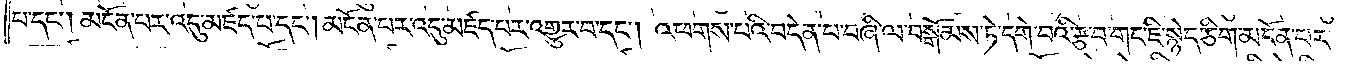པ་དང༌། མངོན་པར་འདུ་མཛད་པ་དང༌། མངོན་པར་འདུ་མཛད་པར་འགྱུར་བ་དང༌། འཕགས་པའི་བདེན་པ་བཞི་ལ་བསྒོམས་ཏེ་དགེ་བའི་རྩ་བ་གང་ཇི་སྙེད་ཅིག་མངོན་པར་
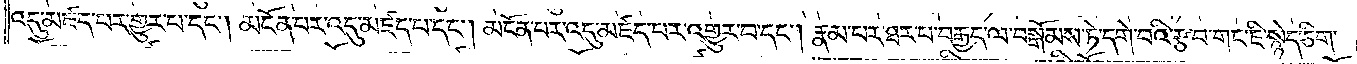འདུ་མཛད་པར་གྱུར་པ་དང༌། མངོན་པར་འདུ་མཛད་པ་དང༌། མངོན་པར་འདུ་མཛད་པར་འགྱུར་བ་དང༌། རྣམ་པར་ཐར་པ་བརྒྱད་ལ་བསྒོམས་ཏེ་དགེ་བའི་རྩ་བ་གང་ཇི་སྙེད་ཅིག་
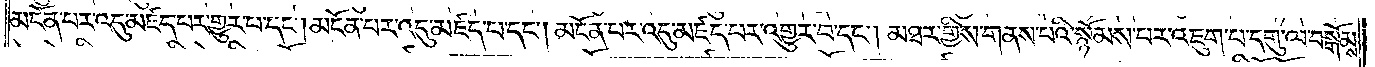མངོན་པར་འདུ་མཛད་པར་གྱུར་པ་དང༌། མངོན་པར་འདུ་མཛད་པ་དང༌། མངོན་པར་འདུ་མཛད་པར་འགྱུར་བ་དང༌། མཐར་གྱིས་གནས་པའི་སྙོམས་པར་འཇུག་པ་དགུ་ལ་བསྒོམས་
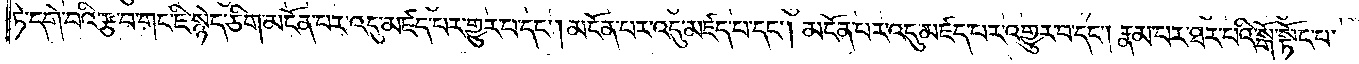ཏེ་དགེ་བའི་རྩ་བ་གང་ཇི་སྙེད་ཅིག་མངོན་པར་འདུ་མཛད་པར་གྱུར་པ་དང༌། མངོན་པར་འདུ་མཛད་པ་དང༌། མངོན་པར་འདུ་མཛད་པར་འགྱུར་བ་དང༌། རྣམ་པར་ཐར་པའི་སྒོ་སྟོང་བ་
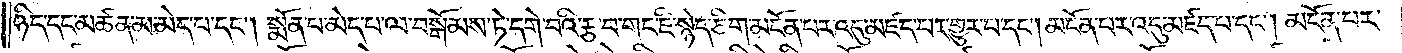ཉིད་དང་མཚན་མ་མེད་པ་དང༌། སྨོན་པ་མེད་པ་ལ་བསྒོམས་ཏེ་དགེ་བའི་རྩ་བ་གང་ཇི་སྙེད་ཅིག་མངོན་པར་འདུ་མཛད་པར་གྱུར་པ་དང༌། མངོན་པར་འདུ་མཛད་པ་དང༌། མངོན་པར་
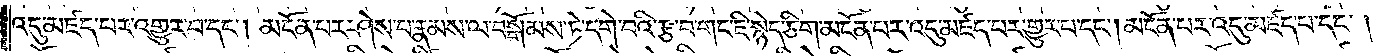འདུ་མཛད་པར་འགྱུར་བ་དང༌། མངོན་པར་ཤེས་པ་རྣམས་ལ་བསྒོམས་ཏེ་དགེ་བའི་རྩ་བ་གང་ཇི་སྙེད་ཅིག་མངོན་པར་འདུ་མཛད་པར་གྱུར་བ་དང༌། མངོན་པར་འདུ་མཛད་པ་དང༌།
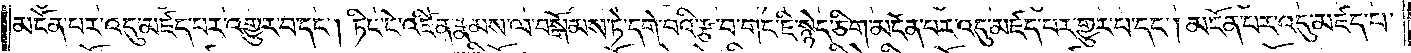མངོན་པར་འདུ་མཛད་པར་འགྱུར་བ་དང༌། ཏིང་ངེ་འཛིན་རྣམས་ལ་བསྒོམས་ཏེ་དགེ་བའི་རྩ་བ་གང་ཇི་སྙེད་ཅིག་མངོན་པར་འདུ་མཛད་པར་གྱུར་པ་དང༌། མངོན་པར་འདུ་མཛད་པ་
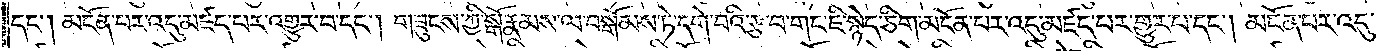དང༌། མངོན་པར་འདུ་མཛད་པར་འགྱུར་བ་དང༌། གཟུངས་ཀྱི་སྒོ་རྣམས་ལ་བསྒོམས་ཏེ་དགེ་བའི་རྩ་བ་གང་ཇི་སྙེད་ཅིག་མངོན་པར་འདུ་མཛད་པར་གྱུར་པ་དང༌། མངོན་པར་འདུ་
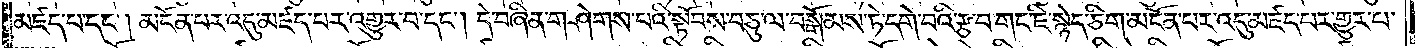མཛད་པ་དང༌། མངོན་པར་འདུ་མཛད་པར་འགྱུར་བ་དང༌། དེ་བཞིན་གཤེགས་པའི་སྟོབས་བཅུ་ལ་བསྒོམས་ཏེ་དགེ་བའི་རྩ་བ་གང་ཇི་སྙེད་ཅིག་མངོན་པར་འདུ་མཛད་པར་གྱུར་པ་
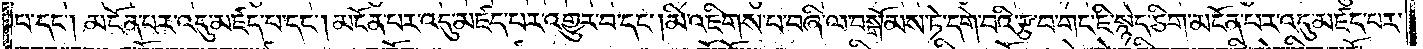པ་དང༌། མངོན་པར་འདུ་མཛད་པ་དང༌། མངོན་པར་འདུ་མཛད་པར་འགྱུར་བ་དང༌། མི་འཇིགས་པ་བཞི་ལ་བསྒོམས་ཏེ་དགེ་བའི་རྩ་བ་གང་ཇི་སྙེད་ཅིག་མངོན་པར་འདུ་མཛད་པར་
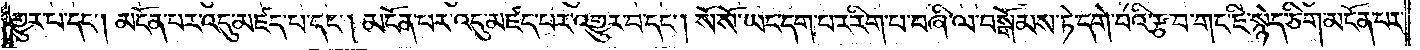གྱུར་པ་དང༌། མངོན་པར་འདུ་མཛད་པ་དང༌། མངོན་པར་འདུ་མཛད་པར་འགྱུར་བ་དང༌། སོ་སོ་ཡང་དག་པར་རིག་པ་བཞི་ལ་བསྒོམས་ཏེ་དགེ་བའི་རྩ་བ་གང་ཇི་སྙེད་ཅིག་མངོན་པར་
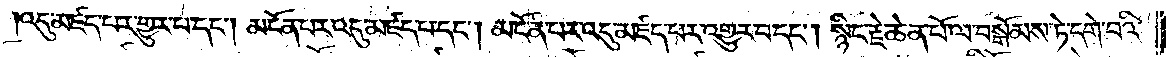འདུ་མཛད་པར་གྱུར་པ་དང༌། མངོན་པར་འདུ་མཛད་པ་དང༌། མངོན་པར་འདུ་མཛད་པར་འགྱུར་བ་དང༌། སྙིང་རྗེ་ཆེན་པོ་ལ་བསྒོམས་ཏེ་དགེ་བའི་
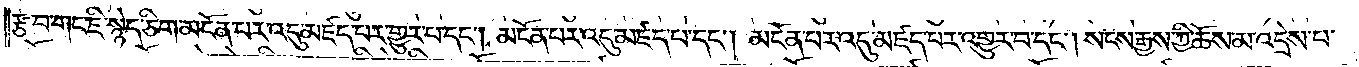རྩ་བ་གང་ཇི་སྙེད་ཅིག་མངོན་པར་འདུ་མཛད་པར་གྱུར་པ་དང༌། མངོན་པར་འདུ་མཛད་པ་དང༌། མངོན་པར་འདུ་མཛད་པར་འགྱུར་བ་དང༌། སངས་རྒྱས་ཀྱི་ཆོས་མ་འདྲེས་པ་
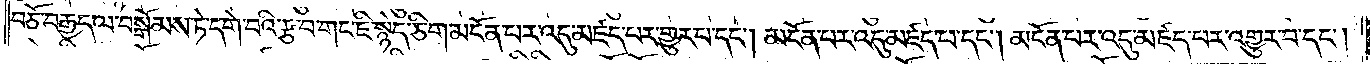བཅོ་བརྒྱད་ལ་བསྒོམས་ཏེ་དགེ་བའི་རྩ་བ་གང་ཇི་སྙེད་ཅིག་མངོན་པར་འདུ་མཛད་པར་གྱུར་པ་དང༌། མངོན་པར་འདུ་མཛད་པ་དང༌། མངོན་པར་འདུ་མཛད་པར་འགྱུར་བ་དང༌།
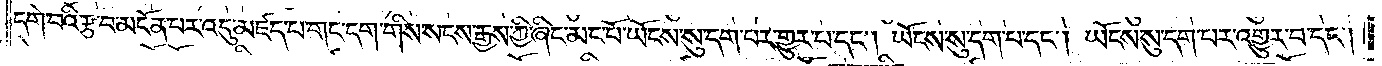དགེ་བའི་རྩ་བ་མངོན་པར་འདུ་མཛད་པ་གང་དག་གིས་སངས་རྒྱས་ཀྱི་ཞིང་མང་པོ་ཡོངས་སུ་དག་པར་གྱུར་པ་དང༌། ཡོངས་སུ་དག་པ་དང༌། ཡོངས་སུ་དག་པར་འགྱུར་བ་དང༌།
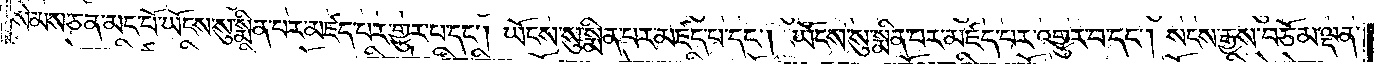སེམས་ཅན་མང་པོ་ཡོངས་སུ་སྨིན་པར་མཛད་པར་གྱུར་པ་དང༌། ཡོངས་སུ་སྨིན་པར་མཛད་པ་དང༌། ཡོངས་སུ་སྨིན་པར་མཛད་པར་འགྱུར་བ་དང༌། སངས་རྒྱས་བཅོམ་ལྡན་
